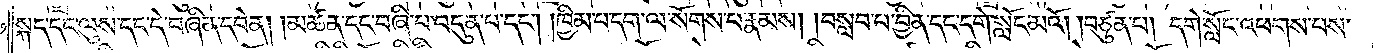སྐད་དང་ལུས་དང་དེ་བཞིན་དབེན། །མཚན་དང་བཞི་པ་བདུན་པ་དང༌། །ཁྱིམ་པ་དག་ལ་སོགས་པ་རྣམས། །བསླབ་པ་བྱིན་དང་དགེ་སློང་མའོ། །བཙུན་པ། དགེ་སློང་འཕགས་པས་
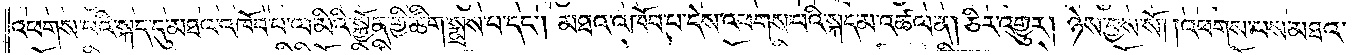འཕགས་པའི་སྐད་དུ་མཐའ་འཁོབ་བ་ལ་མིའི་སྐྱོན་གྱི་ཚིག་སྨྲས་པ་དང༌། མཐའ་འཁོབ་པ་དེས་འཕགས་པའི་སྐད་མ་འཚལ་ན། ཅིར་འགྱུར། ཉེས་བྱས་སོ། །འཕགས་པས་མཐའ་
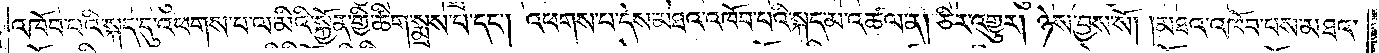འཁོབ་པའི་སྐད་དུ་འཕགས་པ་ལ་མིའི་སྐྱོན་གྱི་ཚིག་སྨྲས་པ་དང༌། འཕགས་པ་དེས་མཐའ་འཁོབ་པའི་སྐད་མ་འཚལ་ན། ཅིར་འགྱུར། ཉེས་བྱས་སོ། །མཐའ་འཁོབ་པས་མཐའ་
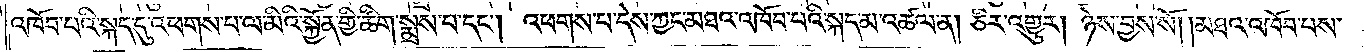འཁོབ་པའི་སྐད་དུ་འཕགས་པ་ལ་མིའི་སྐྱོན་གྱི་ཚིག་སྨྲས་པ་དང༌། འཕགས་པ་དེས་ཀྱང་མཐའ་འཁོབ་པའི་སྐད་མ་འཚལ་ན། ཅིར་འགྱུར། ཉེས་བྱས་སོ། །མཐའ་འཁོབ་པས་
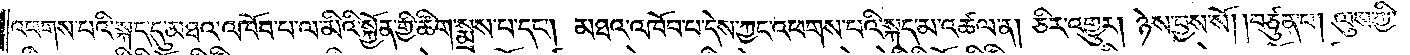འཕགས་པའི་སྐད་དུ་མཐའ་འཁོབ་པ་ལ་མིའི་སྐྱོན་གྱི་ཚིག་སྨྲས་པ་དང༌། མཐའ་འཁོབ་པ་དེས་ཀྱང་འཕགས་པའི་སྐད་མ་འཚལ་ན། ཅིར་འགྱུར། ཉེས་བྱས་སོ། །བཙུན་པ། ལུས་ཀྱི་
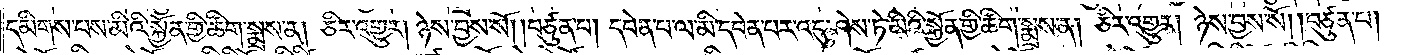དམིགས་པས་མིའི་སྐྱོན་གྱི་ཚིག་སྨྲས་ན། ཅིར་འགྱུར། ཉེས་བྱས་སོ། །བཙུན་པ། དབེན་པ་ལ་མི་དབེན་པར་འདུ་ཤེས་ཏེ་མིའི་སྐྱོན་གྱི་ཚིག་སྨྲས་ན། ཅིར་འགྱུར། ཉེས་བྱས་སོ། །བཙུན་པ་
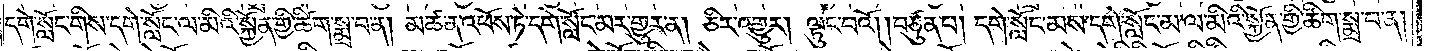དགེ་སློང་གིས་དགེ་སློང་ལ་མིའི་སྐྱོན་གྱི་ཚིག་སྨྲ་བ་ན། མཚན་འཕོས་ཏེ་དགེ་སློང་མར་གྱུར་ན། ཅིར་འགྱུར། ལྟུང་བའོ། །བཙུན་པ། དགེ་སློང་མས་དགེ་སློང་མ་ལ་མིའི་སྐྱོན་གྱི་ཚིག་སྨྲ་བ་ན།
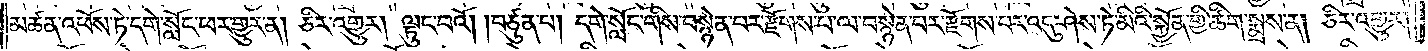མཚན་འཕོས་ཏེ་དགེ་སློང་ཕར་གྱུར་ན། ཅིར་འགྱུར། ལྟུང་བའོ། །བཙུན་པ། དགེ་སློང་གིས་བསྙེན་པར་རྫོགས་པ་ལ་བསྙེན་པར་རྫོགས་པར་འདུ་ཤེས་ཏེ་མིའི་སྐྱོན་གྱི་ཚིག་སྨྲས་ན། ཅིར་འགྱུར།
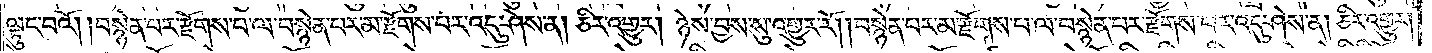ལྟུང་བའོ། །བསྙེན་པར་རྫོགས་པ་ལ་བསྙེན་པར་མ་རྫོགས་པར་འདུ་ཤེས་ན། ཅིར་འགྱུར། ཉེས་བྱས་སུ་འགྱུར་རོ། །བསྙེན་པར་མ་རྫོགས་པ་ལ་བསྙེན་པར་རྫོགས་པར་འདུ་ཤེས་ན། ཅིར་འགྱུར།
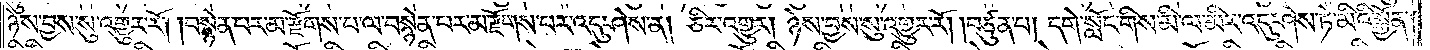ཉེས་བྱས་སུ་འགྱུར་རོ། །བསྙེན་པར་མ་རྫོགས་པ་ལ་བསྙེན་པར་མ་རྫོགས་པར་འདུ་ཤེས་ན། ཅིར་འགྱུར། ཉེས་བྱས་སུ་འགྱུར་རོ། །བཙུན་པ། དགེ་སློང་གིས་མི་ལ་མིར་འདུ་ཤེས་ཏེ་མིའི་སྐྱོན་
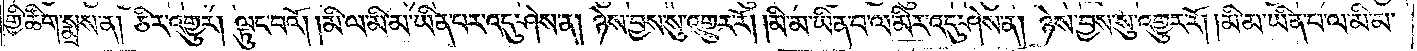གྱི་ཚིག་སྨྲས་ན། ཅིར་འགྱུར། ལྟུང་བའོ། །མི་ལ་མི་མ་ཡིན་པར་འདུ་ཤེས་ན། ཉེས་བྱས་སུ་འགྱུར་རོ། །མི་མ་ཡིན་པ་ལ་མིར་འདུ་ཤེས་ན། ཉེས་བྱས་སུ་འགྱུར་རོ། །མི་མ་ཡིན་པ་ལ་མི་མ་
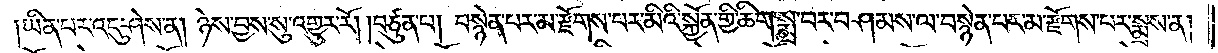།ཡིན་པར་འདུ་ཤེས་ན། ཉེས་བྱས་སུ་འགྱུར་རོ། །བཙུན་པ། བསྙེན་པར་མ་རྫོགས་པར་མིའི་སྐྱོན་གྱི་ཆིག་སྨྲ་བར་བཤམས་ལ་བསྙེན་པར་མ་རྫོགས་པར་སྨྲས་ན།
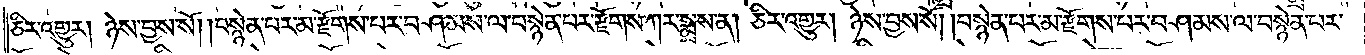ཅིར་འགྱུར། ཉེས་བྱས་སོ། །བསྙེན་པར་མ་རྫོགས་པར་བཤམས་ལ་བསྙེན་པར་རྫོགས་ཀར་སྨྲས་ན། ཅིར་འགྱུར། ཉེས་བྱས་སོ། །བསྙེན་པར་མ་རྫོགས་པར་བཤམས་ལ་བསྙེན་པར་
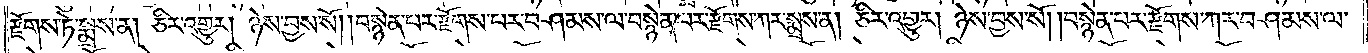རྫོགས་ཏེ་སྨྲས་ན། ཅིར་འགྱུར། ཉེས་བྱས་སོ། །བསྙེན་པར་རྫོགས་པར་བཤམས་ལ་བསྙེན་པར་རྫོགས་ཀར་སྨྲས་ན། ཅིར་འགྱུར། ཉེས་བྱས་སོ། །བསྙེན་པར་རྫོགས་ཀར་བཤམས་ལ་
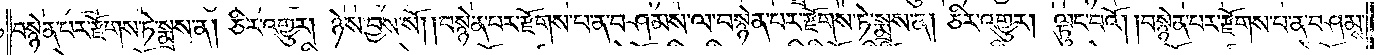བསྙེན་པར་རྫོགས་ཏེ་སྨྲས་ན། ཅིར་འགྱུར། ཉེས་བྱས་སོ། །བསྙེན་པར་རྫོགས་པ་ན་བཤམས་ལ་བསྙེན་པར་རྫོགས་ཏེ་སྨྲས་ན། ཅིར་འགྱུར། ལྟུང་བའོ། །བསྙེན་པར་རྫོགས་པ་ན་བཤམས་
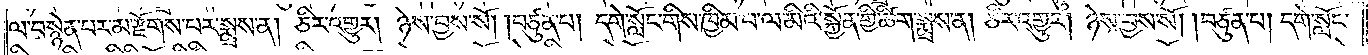ལ་བསྙེན་པར་མ་རྫོགས་པར་སྨྲས་ན། ཅིར་འགྱུར། ཉེས་བྱས་སོ། །བཙུན་པ། དགེ་སློང་གིས་ཁྱིམ་པ་ལ་མིའི་སྐྱོན་གྱི་ཚིག་སྨྲས་ན། ཅིར་འགྱུར། ཉེས་བྱས་སོ། །བཙུན་པ། དགེ་སློང་
